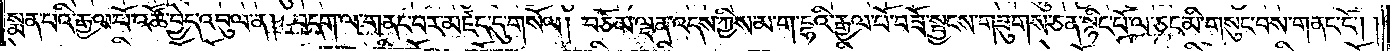སྨན་པའི་རྒྱལ་པོ་འཚོ་བྱེད་འབུལ་ན། བདག་ལ་གནང་བར་མཛད་དུ་གསོལ། །བཅོམ་ལྡན་འདས་ཀྱིས་མ་ག་དྷའི་རྒྱལ་པོ་བཟོ་སྦྱངས་གཟུགས་ཅན་སྙིང་པོ་ལ་ཅང་མི་གསུང་བས་གནང་ངོ༌། །
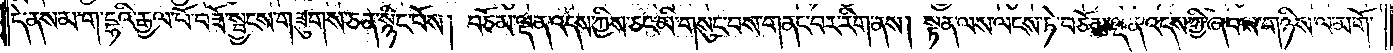དེ་ནས་མ་ག་དྷའི་རྒྱལ་པོ་བཟོ་སྦྱངས་གཟུགས་ཅན་སྙིང་པོས། བཅོམ་ལྡན་འདས་ཀྱིས་ཅང་མི་གསུང་བས་གནང་བར་རིག་ནས། སྟན་ལས་ལངས་ཏེ་བཅོམ་ལྡན་འདས་ཀྱི་ཞབས་གཉིས་ལ་མགོ་
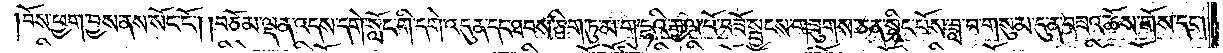བོས་ཕྱག་བྱས་ནས་སོང་ངོ༌། །བཅོམ་ལྡན་འདས་དགེ་སློང་གི་དགེ་འདུན་དང་ཐབས་ཅིག་ཏུ་མ་ག་དྷའི་རྒྱལ་པོ་བཟོ་སྦྱངས་གཟུགས་ཅན་སྙིང་པོས་ཟླ་བ་གསུམ་དུ་ན་བཟའ་ཆོས་གོས་དང༌།
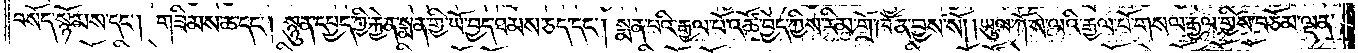བསོད་སྙོམས་དང༌། གཟིམས་ཆ་དང༌། སྙུན་དཔྱད་ཀྱི་རྐྱེན་སྨན་གྱི་ཡོ་བྱད་ཐམས་ཅད་དང༌། སྨན་པའི་རྒྱལ་པོ་འཚོ་བྱེད་ཀྱིས་རིམ་གྲོ་ཁོ་ན་བྱས་སོ། །ཡུལ་ཀོ་ས་ལའི་རྒྱལ་པོ་གསལ་རྒྱལ་གྱིས་བཅོམ་ལྡན་
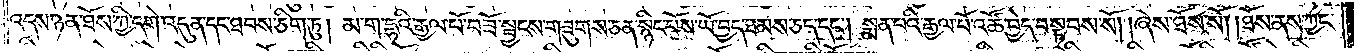འདས་ཉན་ཐོས་ཀྱི་དགེ་འདུན་དང་ཐབས་ཅིག་ཏུ། མ་ག་དྷའི་རྒྱལ་པོ་བཟོ་སྦྱངས་གཟུགས་ཅན་སྙིང་པོས་ཡོ་བྱད་ཐམས་ཅད་དང༌། སྨན་པའི་རྒྱལ་པོ་འཚོ་བྱེད་བསྟབས་སོ། །ཞེས་ཐོས་སོ། །ཐོས་ནས་ཀྱང་
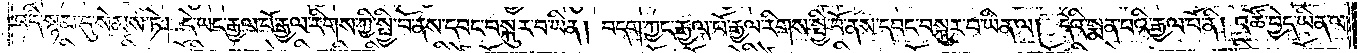འདི་སྙམ་དུ་སེམས་ཏེ། དེ་ཡང་རྒྱལ་པོ་རྒྱལ་རིགས་ཀྱི་སྤྱི་བོ་ནས་དབང་བསྐུར་བ་ཡིན། བདག་ཀྱང་རྒྱལ་པོ་རྒྱལ་རིགས་སྤྱི་བོ་ནས་དབང་བསྐུར་བ་ཡིན་ལ། དེའི་སྨན་པའི་རྒྱལ་པོ་ནི། འཚོ་བྱེད་ཡིན་ལ་
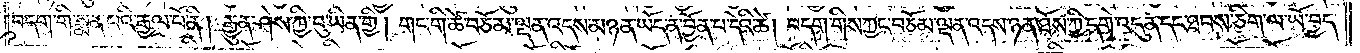བདག་གི་སྨན་པའི་རྒྱལ་པོ་ནི། རྒྱུན་ཤེས་ཀྱི་བུ་ཡིན་གྱི། གང་གི་ཚེ་བཅོམ་ལྡན་འདས་མཉན་ཡོད་ན་བྱོན་པ་དེའི་ཚེ། བདག་གིས་ཀྱང་བཅོམ་ལྡན་འདས་ཉན་ཐོས་ཀྱི་དགེ་འདུན་དང་ཐབས་ཅིག་ལ་ཡོ་བྱད་
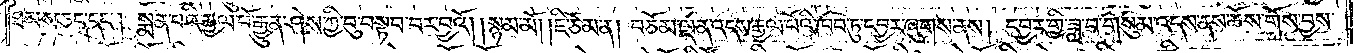ཐམས་ཅད་དང༌། སྨན་པའི་རྒྱལ་པོ་རྒྱུན་ཤེས་ཀྱི་བུ་བསྟབ་བར་བྱའོ། །སྙམ་མོ། །ཇི་ཙམ་ན། བཅོམ་ལྡན་འདས་རྒྱལ་པོའི་ཁབ་ཏུ་དབྱར་ཞུགས་ནས། དབྱར་གྱི་ཟླ་བ་གསུམ་འདས་ནས་ཆོས་གོས་བྱས་
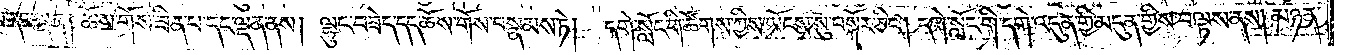པ་དང་ལྡན། ཆོས་གོས་ཟིན་པ་དང་ལྡན་ནས། ལྷུང་བཟེད་དད་ཆོས་གོས་བསྣམས་ཏེ། དགེ་སློང་གི་ཚོགས་ཀྱིས་ཡོངས་སུ་བསྐོར་ཅིང༌། དགེ་སློང་གི་དགེ་འདུན་གྱི་མདུན་གྱིས་བལྟས་ནས། མཉན་
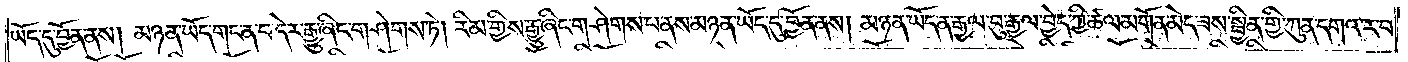ཡོད་དུ་བྱོན་ནས། མཉན་ཡོད་གང་ན་བ་དེར་རྒྱུ་ཞིང་གཤེགས་ཏེ། རིམ་གྱིས་རྒྱུ་ཞིང་གཤེགས་པ་ནས་མཉན་ཡོད་དུ་བྱོན་ནས། མཉན་ཡོད་ན་རྒྱལ་བུ་རྒྱལ་བྱེད་ཀྱི་ཚལ་མགོན་མེད་ཟས་སྦྱིན་གྱི་ཀུན་དགའ་ར་བ་
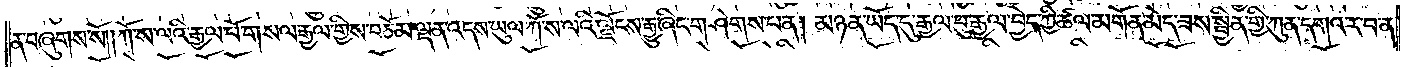ན་བཞུགས་སོ། །ཀོ་ས་ལའི་རྒྱལ་པོ་གསལ་རྒྱལ་གྱིས་བཅོམ་ལྡན་འདས་ཡུལ་ཀོ་ས་ལའི་ལྗོངས་རྒྱུ་ཞིང་གཤེགས་པ་ན། མཉན་ཡོད་དུ་རྒྱལ་བུ་རྒྱལ་བྱེད་ཀྱི་ཚལ་མགོན་མེད་ཟས་སྦྱིན་གྱི་ཀུན་དགའ་ར་བ་ན་
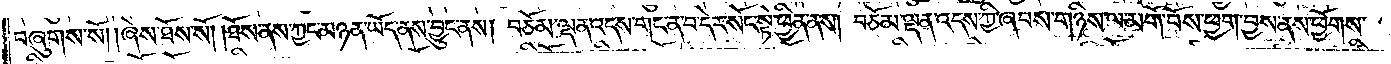བཞུགས་སོ། །ཞེས་ཐོས་སོ། །ཐོས་ནས་ཀྱང་མཉན་ཡོད་ནས་བྱུང་ནས། བཅོམ་ལྡན་འདས་གང་ན་བ་དེར་སོང་སྟེ་ཕྱིན་ནས། བཅོམ་ལྡན་འདས་ཀྱི་ཞབས་གཉིས་ལ་མགོ་བོས་ཕྱག་བྱས་ནས་ཕྱོགས་
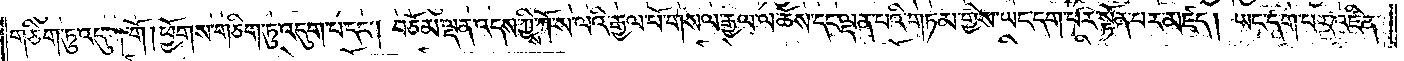གཅིག་ཏུ་འདུག་གོ །ཕྱོགས་གཅིག་ཏུ་འདུག་པ་དང༌། བཅོམ་ལྡན་འདས་ཀྱིས་ཀོ་ས་ལའི་རྒྱལ་པོ་གསལ་རྒྱལ་ལ་ཆོས་དང་ལྡན་པའི་གཏམ་གྱིས་ཡང་དག་པར་སྟོན་པར་མཛད། ཡང་དག་པར་འཛིན་
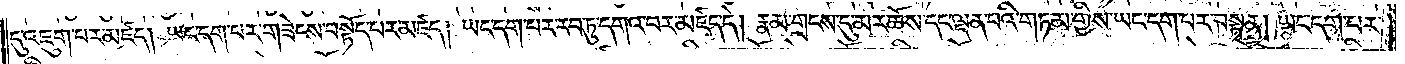དུ་འཇུག་པར་མཛད། ཡང་དག་པར་གཟེངས་བསྟོད་པར་མཛད། ཡང་དག་པར་རབ་ཏུ་དགའ་བར་མཛད་དེ། རྣམ་གྲངས་དུ་མར་ཆོས་དང་ལྡན་པའི་གཏམ་གྱིས་ཡང་དག་པར་བསྟན། ཡང་དག་པར་
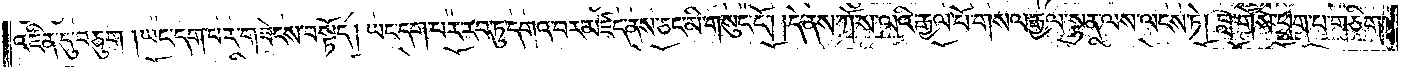འཛིན་དུ་བཅུག །ཡང་དག་པར་གཟེངས་བསྟོད། ཡང་དག་པར་རབ་ཏུ་དགའ་བར་མཛད་ནས་ཅང་མི་གསུང་ངོ༌། །དེ་ནས་ཀོ་ས་ལའི་རྒྱལ་པོ་གསལ་རྒྱལ་སྟན་ལས་ལངས་ཏེ། བླ་གོས་ཕྲག་པ་གཅིག་
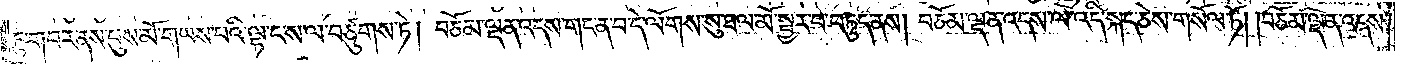ཏུ་ག་བར་ནས་པུས་མོ་གཡས་པའི་ལྷ་ང་ས་ལ་བཙུགས་ཏེ། བཅོམ་ལྡན་འདས་གང་ན་བ་དེ་ལོགས་སུ་ཐལ་མོ་སྦྱར་བ་བཏུད་ནས། བཅོམ་ལྡན་འདས་ལ་འདི་སྐད་ཅེས་གསོལ་ཏོ། །བཅོམ་ལྡན་འདས་
